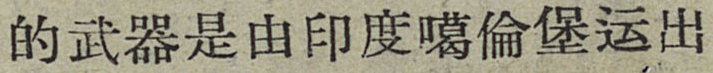的武器是由印度噶倫堡运出
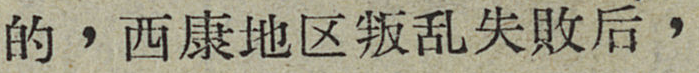的，西康地区叛乱失敗后，
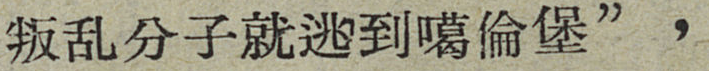叛乱分子就逃到噶倫堡”，
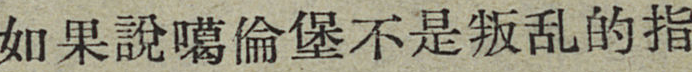如果說噶倫堡不是叛乱的指
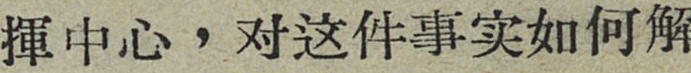揮中心，对这件事实如何解
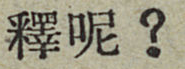釋呢？
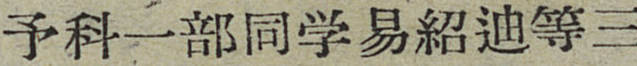予科一部同学易紹迪等三
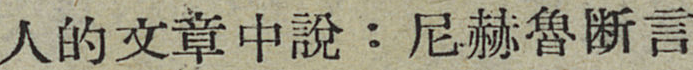人的文章中說：尼赫魯断言
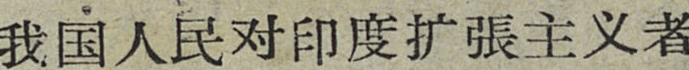我国人民对印度扩張主义者
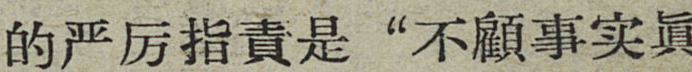的严厉指責是“不顧事实眞
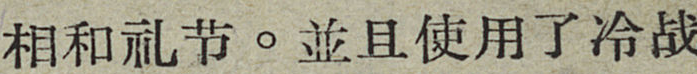相和礼节。並且使用了冷战
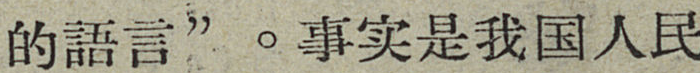的語言”。事实是我国人民
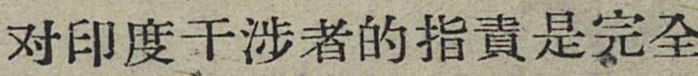对印度干涉者的指責是完全
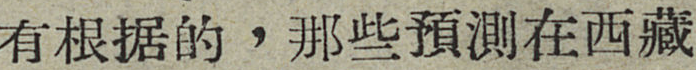有根据的，那些預測在西藏
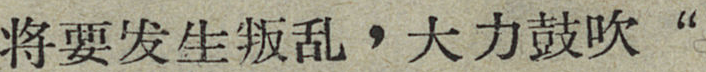将要发生叛乱，大力鼓吹“
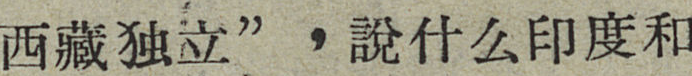西藏独立”，說什么印度和
